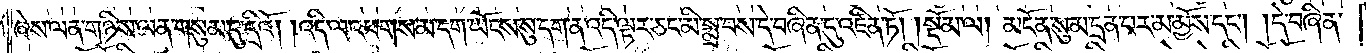ཞེས་ལན་གཉིས་ལན་གསུམ་དུ་དྲིའོ། །འདི་ལ་འཕགས་མ་དག་ཡོངས་སུ་དག་ན་འདི་ལྟར་ཅང་མི་སྨྲ་བས་དེ་བཞིན་དུ་འཛིན་ཏོ།    །སྡོམ་ལ། སྡོམ་ལ། མངོན་སུམ་དྲན་པར་མ་མྱོས་དང༌། །དེ་བཞིན་
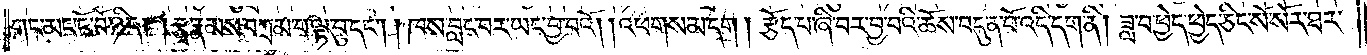གང་མང་ངོ་བོ་ཉིད། །རྩྭ་རྣམས་བཀྲམ་པ་ལྟ་བུ་དང༌། །ཁས་བླང་བར་ཡང་བྱ་བའོ། །འཕགས་མ་དག། རྩོད་པ་ཞི་བར་བྱ་བའི་ཆོས་བདུན་པོ་འདི་དག་ནི། ཟླ་བ་ཕྱེད་ཕྱེད་ཅིང་སོ་སོར་ཐར་
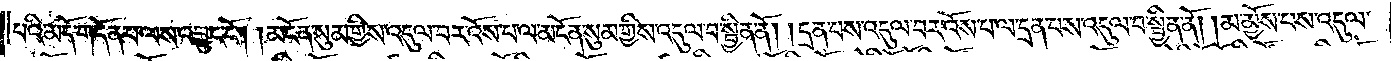པའི་མདོ་གདོན་པ་ལས་འབྱུང་ངོ༌། །མངོན་སུམ་གྱིས་འདུལ་བར་འོས་པ་ལ་མངོན་སུམ་གྱིས་འདུལ་བ་སྦྱིན་ནོ། །དྲན་པས་འདུལ་བར་འོས་པ་ལ་དྲན་པས་འདུལ་བ་སྦྱིན་ནོ། །མ་མྱོས་པས་འདུལ་
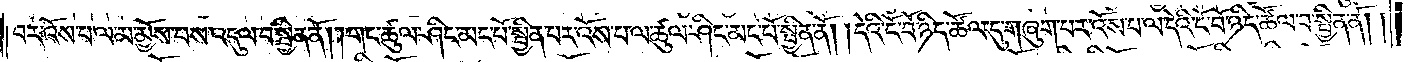བར་འོས་པ་ལ་མ་མྱོས་པས་འདུལ་བ་སྦྱིན་ནོ། །གང་ཚུལ་ཤིང་མང་པོ་སྦྱིན་པར་འོས་པ་ལ་ཚུལ་ཤིང་མང་པོ་སྦྱིན་ནོ། །དེའི་ངོ་བོ་ཉིད་ཚོལ་དུ་གཞུག་པར་འོས་པ་ལ་དེའི་ངོ་བོ་ཉིད་ཚོལ་བ་སྦྱིན་ནོ། །
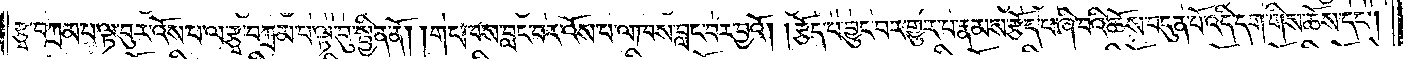རྩྭ་བཀྲམ་པ་ལྟ་བུར་འོས་པ་ལ་རྩྭ་བཀྲམ་པ་ལྟ་བུ་སྦྱིན་ནོ། །གང་ཁས་བླང་བར་འོས་པ་ལ་ཁས་བླང་བར་བྱའོ། །རྩོད་པ་བྱུང་བར་གྱུར་པ་རྣམས་རྩོད་པ་ཞི་བའི་ཆོས་བདུན་པོ་འདི་དག་གིས་ཆོས་དང༌།
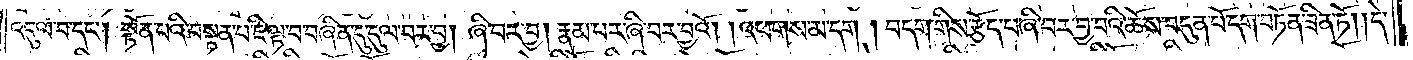འདུལ་བ་དང༌། སྟོན་པའི་བསྟན་པ་ཇི་ལྟ་བ་བཞིན་དུ་དུལ་བར་བྱ། ཞི་བར་བྱ། རྣམ་པར་ཞི་བར་བྱའོ། །འཕགས་མ་དག །བདག་གིས་རྩོད་པ་ཞི་བར་བྱ་བའི་ཆོས་བདུན་པོ་དག་བཏོན་ཟིན་ཏོ། །དེ་
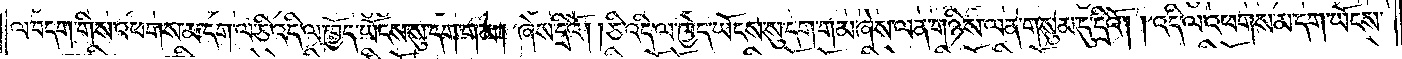ལ་བདག་གིས་འཕགས་མ་དག་ལ་ཅི་འདི་ལ་ཁྱོད་ཡོངས་སུ་དག་གམ། ཞེས་དྲིའོ། །ཅི་འདི་ལ་ཁྱེད་ཡོངས་སུ་དག་གམ་ཞེས་ལན་གཉིས་ལན་གསུམ་དུ་དྲིའོ། །འདི་ལ་འཕགས་མ་དག་ཡོངས་
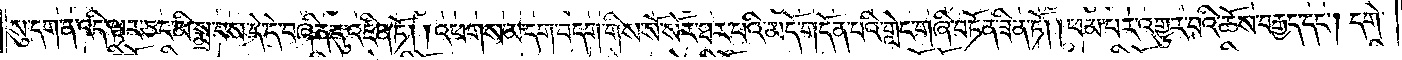སུ་དག་ན་འདི་ལྟར་ཅང་མི་སྨྲ་བས་དེ་དེ་བཞིན་དུ་འཛིན་ཏོ། །འཕགས་མ་དག་བདག་གིས་སོ་སོར་ཐར་པའི་མདོ་གདོན་པའི་གླེང་གཞི་བཏོན་ཟིན་ཏོ། །ཕམ་པར་འགྱུར་བའི་ཆོས་བརྒྱད་དང༌། དགེ་
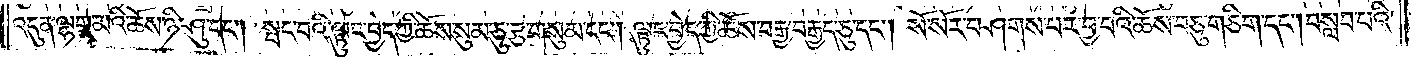འདུན་ལྷག་མའི་ཆོས་ཉི་ཤུ་དང༌། སྤང་བའི་ལྟུང་བྱེད་ཀྱི་ཆོས་སུམ་ཅུ་རྩ་གསུམ་དང༌། ལྟུང་བྱེད་ཀྱི་ཆོས་བརྒྱ་བརྒྱད་ཅུ་དང༌། སོ་སོར་བཤགས་པར་བྱ་བའི་ཆོས་བཅུ་གཅིག་དང༌། བསླབ་པའི་
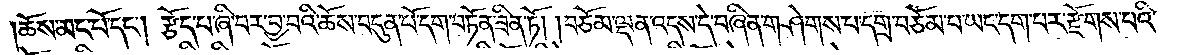ཆོས་མང་པོ་དང༌། རྩོད་པ་ཞི་བར་བྱ་བའི་ཆོས་བདུན་པོ་དག་བཏོན་ཟིན་ཏོ། །བཅོམ་ལྡན་འདས་དེ་བཞིན་གཤེགས་པ་དགྲ་བཅོམ་པ་ཡང་དག་པར་རྫོགས་པའི་
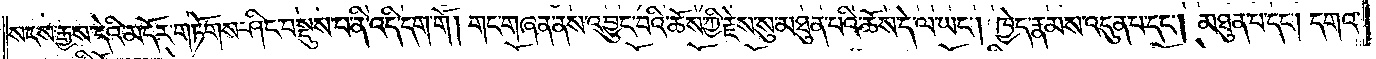སངས་རྒྱས་དེའི་མདོར་གཏོགས་ཤིང་བསྡུས་པ་ནི་འདི་དག་གོ །གང་གཞན་ནས་འབྱུང་བའི་ཆོས་ཀྱི་རྗེས་སུ་མཐུན་པའི་ཆོས་དེ་ལ་ཡང༌། ཁྱེད་རྣམས་འདུན་པ་དང༌། མཐུན་པ་དང༌། དགའ་
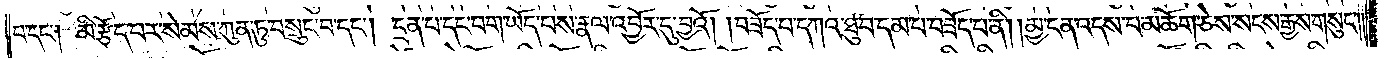བ་དང༌། མི་རྩོད་པར་སེམས་ཀུན་ཏུ་བསྲུང་བ་དང༌། དྲན་པ་དང་བག་ཡོད་པས་རྣལ་འབྱོར་དུ་བྱའོ། །བཟོད་པ་དཀའ་ཐུབ་དམ་པ་བཟོད་པ་ནི། །མྱ་ངན་འདས་པ་མཆོག་ཅེས་སངས་རྒྱས་གསུང༌༎
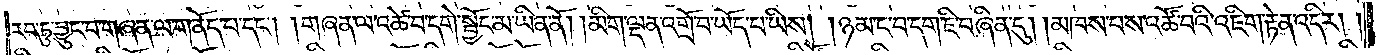རབ་ཏུ་བྱུང་བ་གཞན་ལ་གནོད་པ་དང༌། །གཞན་ལ་འཚེ་བ་དགེ་སྦྱོང་མ་ཡིན་ནོ། །མིག་ལྡན་འགྲོ་བ་ཡོད་པ་ཡིས། །ཉམ་ང་བ་དག་ཇི་བཞིན་དུ། །མཁས་པས་འཚོ་བའི་འཇིག་རྟེན་འདིར། །
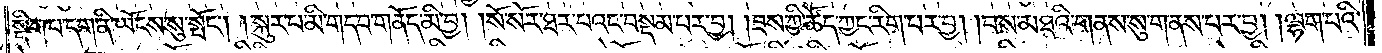སྡིག་པ་དག་ནི་ཡོངས་སུ་སྤོང༌། །སྐུར་པ་མི་གདབ་གནོད་མི་བྱ། །སོ་སོར་ཐར་པའང་བསྡམ་པར་བྱ། །ཟས་ཀྱི་ཚོད་ཀྱང་རིག་པར་བྱ། །བས་མཐའི་གནས་སུ་གནས་པར་བྱ། །ལྷག་པའི་
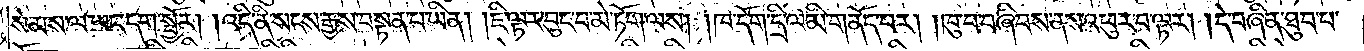སེམས་ལ་ཡང་དག་སྦྱོར། །འདི་ནི་སངས་རྒྱས་བསྟན་པ་ཡིན། །ཇི་ལྟར་བུང་བ་མེ་ཏོག་ལས། །ཁ་དོག་དྲི་ལ་མི་གནོད་པར། །ཁུ་བ་བཞི་བས་ནས་འཕུར་བ་ལྟར། །དེ་བཞིན་དུ་ཐུབ་པ་
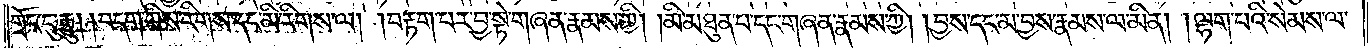གྲོང་དུ་རྒྱུ། །བདག་གིས་རིགས་དང་མི་རིགས་ལ། །བརྟག་པར་བྱ་སྟེ་གཞན་རྣམས་ཀྱི། །མི་མཐུན་པ་དང་གཞན་རྣམས་ཀྱི། །བྱས་དང་མ་བྱས་རྣམས་ལ་མིན། །ལྷག་པའི་སེམས་ལ་
